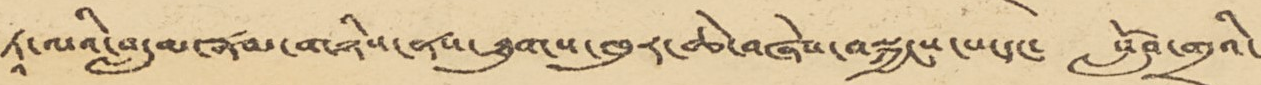ཏཱ་ལའི་བླ་མ་རྣམ་གཉིས་ནས་ཐུགས་ཁུར་ཆེ་བཞེས་བསྐྱངས་པ་དང་ སློབ་གྲྭའི་
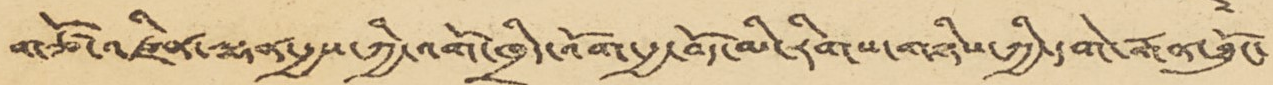གཙོ་འཛིན་ལྷན་རྒྱས་ཀྱི་འགོ་ཁྲིད་འོག་རྒྱ་བོད་མི་རིགས་གཉིས་ཀྱི་དགེ་རྒན་ཐོུང་
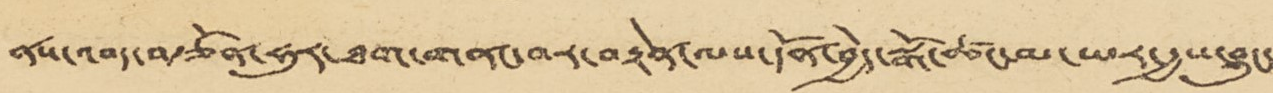ནས་འབད་བརྩོན་ཧུར་ཐག་གནང་བར་བརྟེན་ལས་དོན་བྱེད་སྒོ་ཚང་མ་ཡར་རྒྱས་བྱུང་
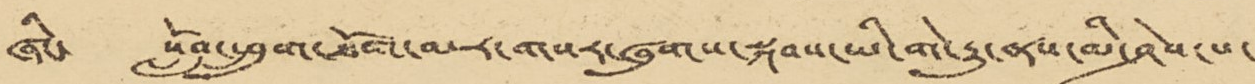ཞིང་ སློབ་ཕྲུག་ཐོག་མར་གསར་ཞུགས་སྐབས་ཡི་གེ་རྒྱུ་ནས་མི་ཤེས་པ་
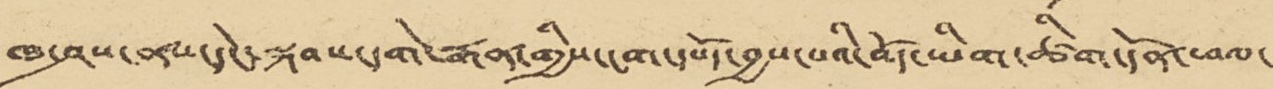ཁ་ཤས་ནས་དེང་སྐབས་དགེ་རྒན་གྱིས་ངག་དཔོད་བྱས་པའི་བོད་ཡིག་ཚིག་དོན་ཕལ་
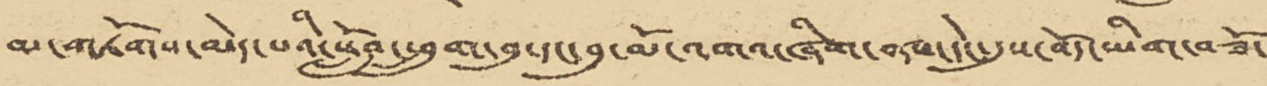མ་གཏོགས་མེད་པའི་སློབ་ཕྲུག་བུ་དང་བུ་མོ་འགའ་ཞིག་ནས་དེང་དུས་བོད་ཡིག་བཟོ་
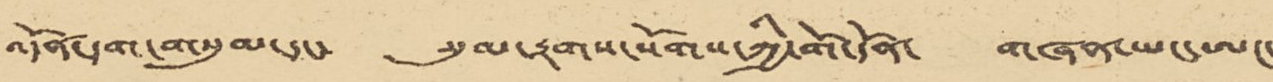འདོན་དག་གསུམ་དང་ སུམ་རྟགས་སོགས་ཀྱི་གོ་དོན་ གཞན་ཡང་ཨང་
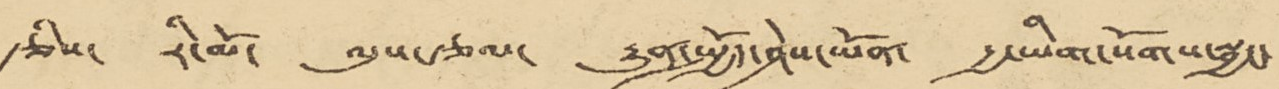རྩིས་ རི་མོ་ ལུས་རྩལ་ རྒྱུན་སྤྱོད་ཤེས་ཡོན་ རྒྱ་ཡིག་སོགས་སྦྱང་
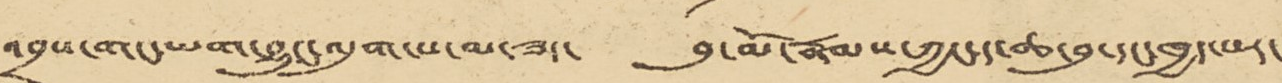འབྲས་གང་ཡག་བྱུང་འདུག་པ་མ་ཟད་ བུ་མོ་རྣམས་ཀྱང་ད་ཆ་བུ་དང་ཁྱད་པར་
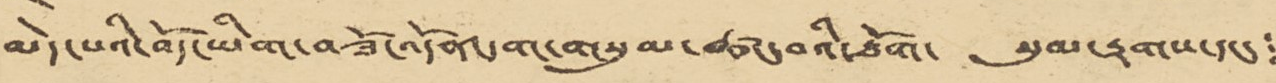མེད་པའི་བོད་ཡིག་བཟོ་དོན་དག་གསུམ་ཚང་བའི་ཐོག་ སུམ་རྟགས་དང་།
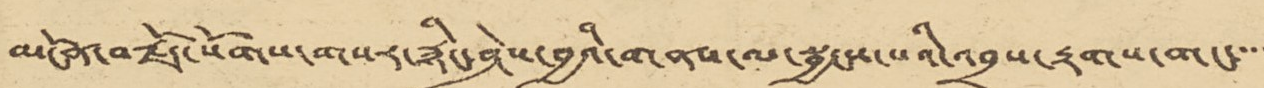མངོན་བརྗོད་སོགས་གསར་རྙིང་ཤེས་བྱའི་གནས་ལ་སྦྱངས་པའི་འབྲས་རྟགས་གང་་་་
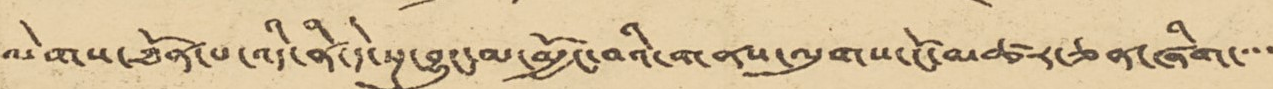ལེགས་ཐོན་པ་འདི་ནི་དེ་སྔ་བྱུང་མ་མྱོང་བའི་གནས་ལུགས་ངོ་མཚར་ཅན་ཞིག་་་་
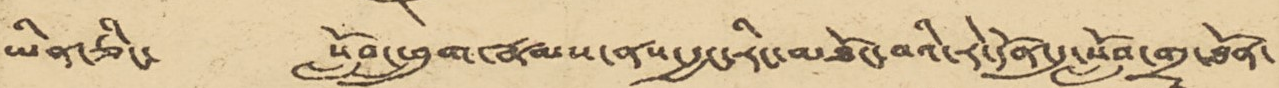ཡིན་ཅིང་ སློབ་ཕྲུག་རྣམས་ནས་རྒྱང་རིང་མཐོང་བའི་རེ་དོན་དུ་སློབ་གྲྭ་ཐོན་
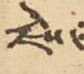རྗེས་
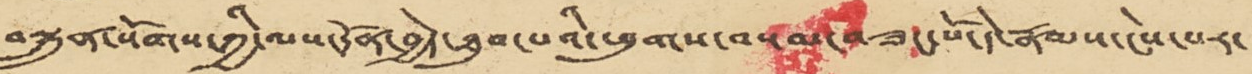བསྐྲུན་སོགས་ཀྱི་ལས་དོན་བྱེད་ཐུབ་པའི་ཕུགས་བསམ་བཟང་པོ་དེ་རྣམས་ངེས་པར་
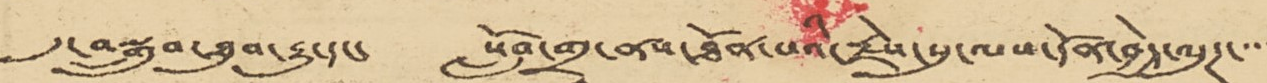དུ་བསྒྲུབ་ཐུབ་རྒྱུ་དང་ སློབ་གྲྭ་ནས་ཐོན་པའི་རྗེས་སུ་ལས་དོན་བྱེད་ལུཊ་་་་
